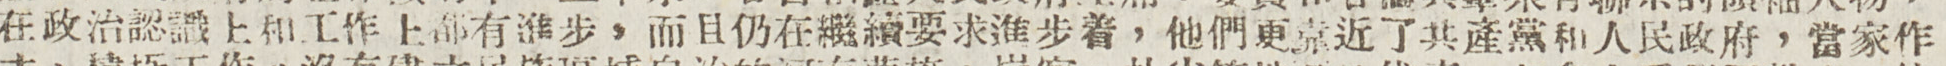在政治認識上和工作上都有進步，而且仍在繼續要求進步着，他們更靠近了共產黨和人民政府，當家作
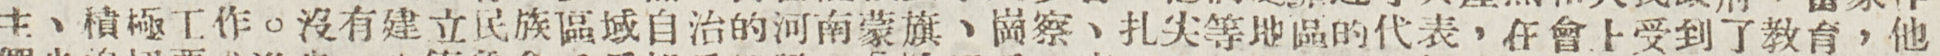主、積極工作。沒有建立民族區域自治的河南蒙旗、崗察、扎尖等地區的代表，在會上受到了教育，他
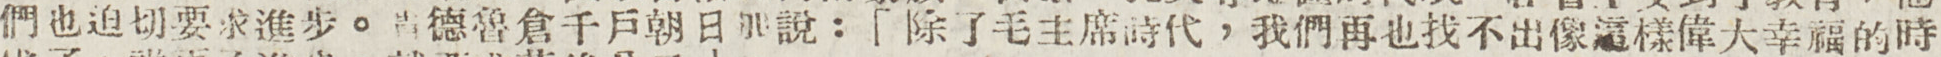們也迫切要求進步。貴德魯倉千戶朝日加說：「除了毛主席時代，我們再也找不出像這樣偉大幸福的時
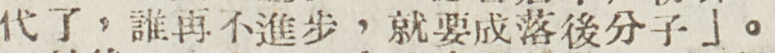代了，誰再不進步，就要成爲落後分子」。
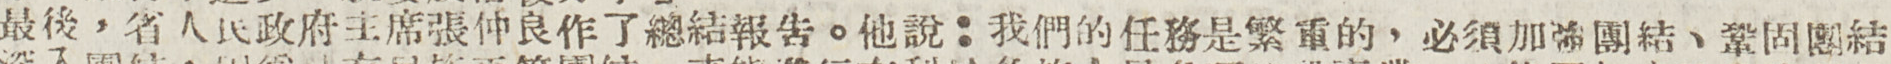最後，省人民政府主席張仲良作了總結報告。他說：我們的任務是繁重的，必須加強團結、鞏固團結
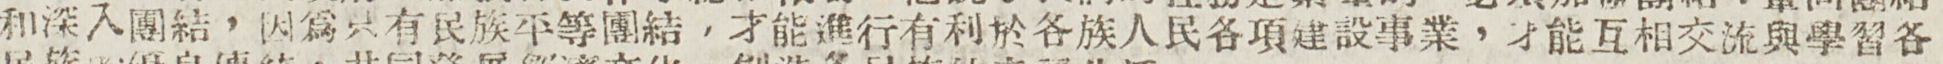和深入團結，因爲只有民族平等團結，才能進行有利於各族人民各項建設事業，才能互相交流與學習各
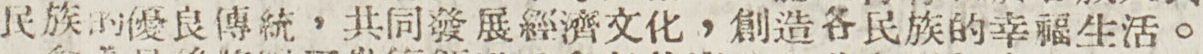民族的優良傳統，共同發展經濟文化，創造各民族的幸福生活。
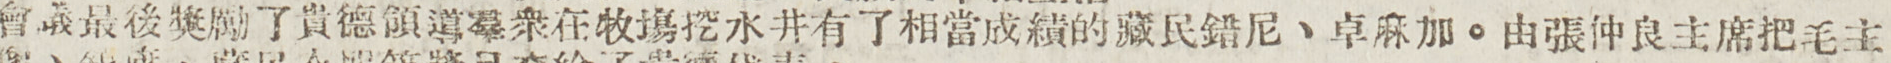會議最後獎勵了貴德領導羣衆在牧塲挖水井有了相當成績的藏民錯尼、卓麻加。由張仲良主席把毛主
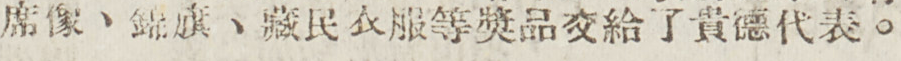席像、錦旗、藏民衣服等獎品交給了貴德代表。
